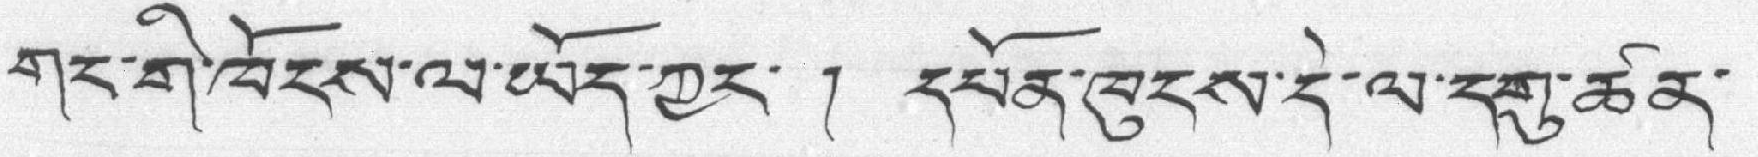གང་གི་ཁོངས་ལ་ཡོད་ཀྱང་ ། དཔོན་ཁུངས་དེ་ལ་དགུ་ཚན་
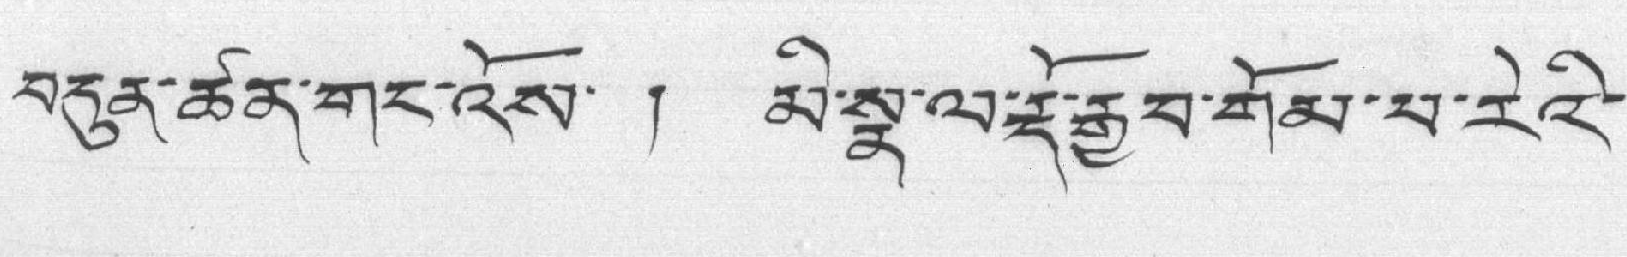བདུན་ཚན་གང་འོས་ ། མི་སྣ་ལ་རྡོ་རྒྱབ་གོམ་པ་རེའི་
